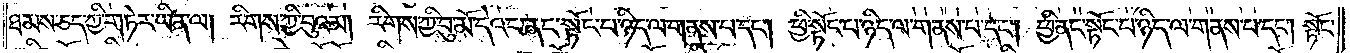ཐམས་ཅད་ཀྱི་གཏེར་ཡིན་ལ། རིགས་ཀྱི་བུའམ། རིགས་ཀྱི་བུ་མོ་དེའང་ནང་སྟོང་པ་ཉིད་ལ་གནས་པ་དང༌། ཕྱི་སྟོང་པ་ཉིད་ལ་གནས་པ་དང༌། ཕྱི་ནང་སྟོང་པ་ཉིད་ལ་གནས་པ་དང༌། སྟོང་
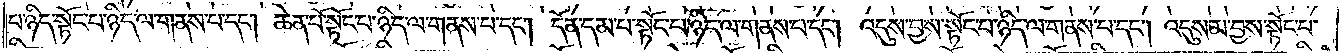པ་ཉིད་སྟོང་པ་ཉིད་ལ་གནས་པ་དང༌། ཆེན་པོ་སྟོང་པ་ཉིད་ལ་གནས་པ་དང༌། དོན་དམ་པ་སྟོང་པ་ཉིད་ལ་གནས་པ་དང༌། འདུས་བྱས་སྟོང་པ་ཉིད་ལ་གནས་པ་དང༌། འདུས་མ་བྱས་སྟོང་པ་
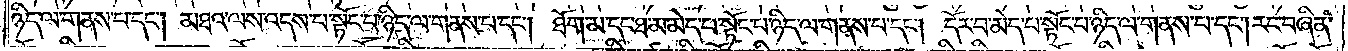ཉིད་ལ་གནས་པ་དང༌། མཐའ་ལས་འདས་པ་སྟོང་པ་ཉིད་ལ་གནས་པ་དང༌། ཐོག་མ་དང་ཐ་མ་མེད་པ་སྟོང་པ་ཉིད་ལ་གནས་པ་དང༌། དོར་བ་མེད་པ་སྟོང་པ་ཉིད་ལ་གནས་པ་དང༌། རང་བཞིན་
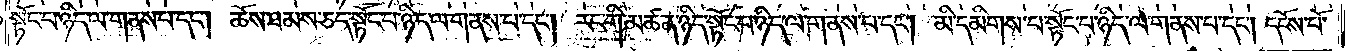སྟོང་པ་ཉིད་ལ་གནས་པ་དང༌། ཆོས་ཐམས་ཅད་སྟོང་པ་ཉིད་ལ་གནས་པ་དང༌། རང་གི་མཚན་ཉིད་སྟོང་པ་ཉིད་ལ་གནས་པ་དང༌། མི་དམིགས་པ་སྟོང་པ་ཉིད་ལ་གནས་པ་དང༌། དངོས་པོ་
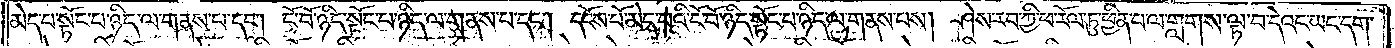མེད་པ་སྟོང་པ་ཉིད་ལ་གནས་པ་དང༌། ངོ་བོ་ཉིད་སྟོང་པ་ཉིད་ལ་གནས་པ་དང༌། དངོས་པོ་མེད་པའི་ངོ་བོ་ཉིད་སྟོང་པ་ཉིད་ལ་གནས་པས། ཤེས་རབ་ཀྱི་ཕ་རོལ་ཏུ་ཕྱིན་པ་ལ་གླགས་ལྟ་བ་དེའང་ཡང་དག་
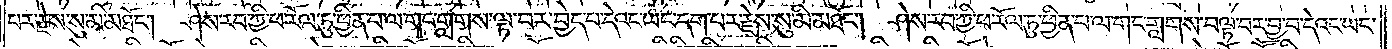པར་རྗེས་སུ་མི་མཐོང༌། ཤེས་རབ་ཀྱི་ཕ་རོལ་ཏུ་ཕྱིན་པ་ལ་གང་གླགས་ལྟ་བར་བྱེད་པ་དེའང་ཡང་དག་པར་རྗེས་སུ་མི་མཐོང༌། ཤེས་རབ་ཀྱི་ཕ་རོལ་ཏུ་ཕྱིན་པ་ལ་གང་གླགས་བལྟ་བར་བྱ་བ་དེའང་ཡང་
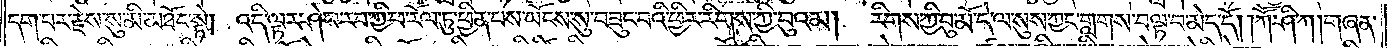དག་པར་རྗེ་སུ་མི་མཐོང་སྟེ། འདི་ལྟར་ཤེས་རབ་ཀྱི་ཕ་རོལ་ཏུ་ཕྱིན་པས་ཡོངས་སུ་བཟུང་བའི་ཕྱིར་རིགས་ཀྱི་བུའམ། རིགས་ཀྱི་བུ་མོ་དེ་ལ་སུས་ཀྱང་གླགས་བལྟ་བ་མེད་དོ། །ཀཽ་ཤི་ཀ །གཞན་
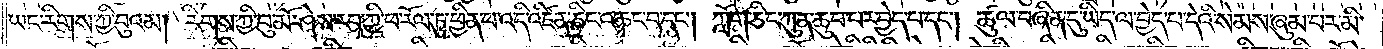ཡང་རིགས་ཀྱི་བུའམ། རིགས་ཀྱི་བུ་མོ་ཤེས་རབ་ཀྱི་ཕ་རོལ་ཏུ་ཕྱིན་པ་འདི་འཛིན་ཅིང་འཆང་བ་དང༌། ཀློག་ཅིང་ཀུན་ཆུབ་པར་བྱེད་པ་དང༌། ཚུལ་བཞིན་དུ་ཡིད་ལ་བྱེད་པ་དེའི་སེམས་ཞུམ་པར་མི་
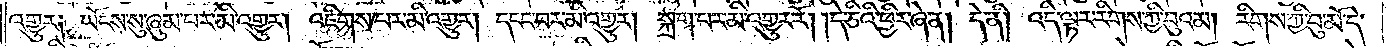འགྱུར༑ ཡོངས་སུ་ཞུམ་པར་མི་འགྱུར། འཇིགས་པར་མི་འགྱུར། དངང་བར་མི་འགྱུར། སྐྲག་པར་མི་འགྱུར་རོ། །དེ་ཅིའི་ཕྱིར་ཞེ་ན། དེ་ནི། འདི་ལྟར་རིགས་ཀྱི་བུའམ། རིགས་ཀྱི་བུ་མོ་དེ་
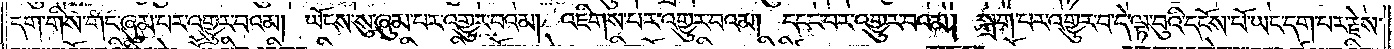དག་གིས་གང་ཞུམ་པར་འགྱུར་བའམ། ཡོངས་སུ་ཞུམ་པར་འགྱུར་བའམ། འཇིགས་པར་འགྱུར་བའམ། དངང་བར་འགྱུར་བའམ། སྐྲག་པར་འགྱུར་བ་དེ་ལྟ་བུའི་དངོས་པོ་ཡང་དག་པར་རྗེས་
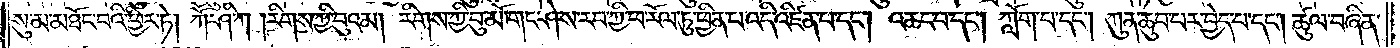སུ་མ་མཐོང་བའི་ཕྱིར་ཏེ། ཀཽ་ཤི་ཀ །རིགས་ཀྱི་བུའམ། རིགས་ཀྱི་བུ་མོ་གང་ཤེས་རབ་ཀྱི་ཕ་རོལ་ཏུ་ཕྱིན་པ་འདི་འཛིན་པ་དང༌། འཆང་བ་དང༌། ཀློག་པ་དང༌། ཀུན་ཆུབ་པར་བྱེད་པ་དང༌། ཚུལ་བཞིན་
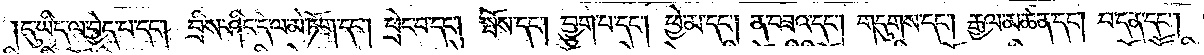དུ་ཡིད་ལ་བྱེད་པ་དང༌། བྲིས་ཤིང་དེ་ལ་མེ་ཏོག་དང༌། ཕྲེང་བ་དང༌། སྤོས་དང༌། བྱུག་པ་དང༌། ཕྱེ་མ་དང༌། ན་བཟའ་དང༌། གདུགས་དང༌། རྒྱལ་མཚན་དང༌། བ་དན་དང༌།
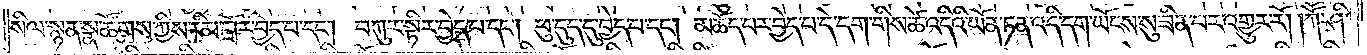སིལ་སྙན་སྣ་ཚོགས་ཀྱིས་རིམ་གྲོར་བྱེད་པ་དང༌། བཀུར་སྟིར་བྱེད་པ་དང༌། ཕུ་དུད་དུ་བྱེད་པ་དང༌། མཆོད་པར་བྱེད་པ་དེ་དག་གིས་ཚེ་འདིའི་ཡོན་ཏན་འདི་དག་ཡོངས་སུ་ཟིན་པར་འགྱུར་རོ། །ཀཽ་ཤི་
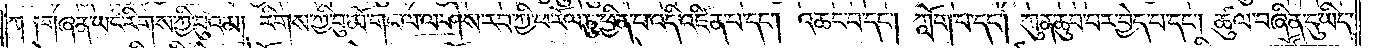ཀ ༑གཞན་ཡང་རིགས་ཀྱི་བུའམ། རིགས་ཀྱི་བུ་མོ་གང་ལ་ལ་ཤེས་རབ་ཀྱི་ཕ་རོལ་ཏུ་ཕྱིན་པ་འདི་འཛིན་པ་དང༌། འཆང་བ་དང༌། ཀློག་པ་དང༌། ཀུན་ཆུབ་པར་བྱེད་པ་དང༌། ཚུལ་བཞིན་དུ་ཡིད་
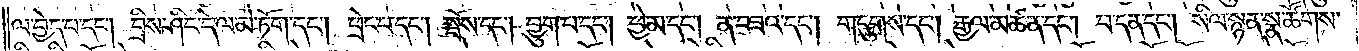ལ་བྱེད་པ་དང༌། བྲིས་ཤིང་དེ་ལ་མེ་ཏོག་དང༌། ཕྲེང་བ་དང། སྤོས་དང༌། བྱུག་པ་དང༌། ཕྱེ་མ་དང༌། ན་བཟའ་དང༌། གདུགས་དང༌། རྒྱལ་མཚན་དང༌། བ་དན་དང༌། སིལ་སྙན་སྣ་ཚོགས་
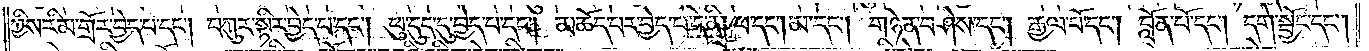ཀྱིས་རིམ་གྲོར་བྱེད་པ་དང༌། བཀུར་སྟིར་བྱེད་པ་དང༌། ཕུ་དུད་དུ་བྱེད་པ་དང༌། མཆོད་པར་བྱེད་པ་དེ་ནི། ཕ་དང༌། མ་དང༌། གཉེན་བཤེས་དང༌། རྒྱལ་པོ་དང༌། བློན་པོ་དང༌། དགེ་སྦྱོང་དང༌།
